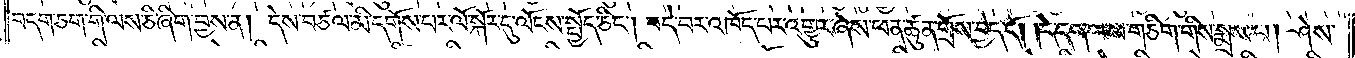བདག་ཅག་གི་ལས་ཅི་ཞིག་བྱས་ན། དེས་བཙལ་མི་དགོས་པར་ལོ་སྐོར་དུ་ལོངས་སྤྱོད་ཅིང༌། བདེ་བར་འཁོད་པར་འགྱུར་ཞེས་ཕན་ཚུན་གྲོས་བྱེད་དོ། །དེ་དག་ལས་གཅིག་གིས་སྨྲས་པ། ཤེས་
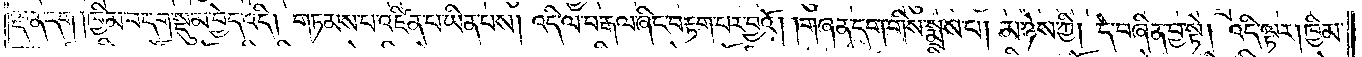ལྡན་དག །ཁྱིམ་བདག་སྡུམ་བྱེད་འདི། གཏམས་པ་འཛིན་པ་ཡིན་པས། འདི་ལ་བརྒལ་ཞིང་བརྟག་པར་བྱའོ། །གཞན་དག་གིས་སྨྲས་པ། མ་ཉེས་ཀྱི། དེ་བཞིན་བྱ་སྟེ། འདི་ལྟར། ཁྱིམ་
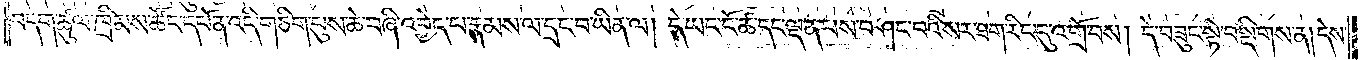བདག་ཚུལ་ཁྲིམས་ཚོང་དཔོན་འདི་གཅིག་པུས་ཆེ་བཞི་འབྱེད་པ་རྣམས་ལ་དྲང་བ་ཡིན་ལ། དེ་ཡང་ངོ་ཚ་དང་ལྡན་པས་བཤང་བའི་སར་ཐག་རིང་དུ་འགྲོ་བས། དེ་བཟུང་སྟེ་བསྡིགས་ན། དེས་
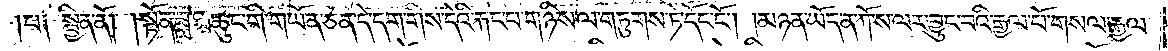པ༑ སྦྱིན་ནོ། །སྟོན་ཟླ་ཐ་ཆུང་གི་གཡོན་ཅན་དེ་དག་གིས་དེའི་རྐང་པ་གཉིས་ལ་གཏུགས་ཏེ་དོང་ངོ༌། །མཉན་ཡོད་ན་ཀོ་ས་ལར་བྱུང་བའི་རྒྱལ་པོ་གསལ་རྒྱལ་
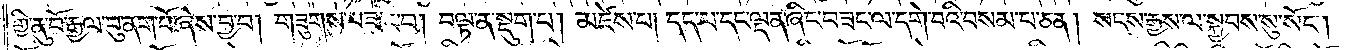གྱི་ནུ་བོ་རྒྱལ་བུ་ནག་པོ་ཞེས་བྱ་བ། གཟུགས་བཟང་བ། བལྟ་ན་སྡུག་པ། མཛེས་པ། དད་པ་དང་ལྡན་ཞིང་བཟང་ལ་དག་བའི་བསམ་པ་ཅན། སངས་རྒྱས་ལ་སྐྱབས་སུ་སོང༌།
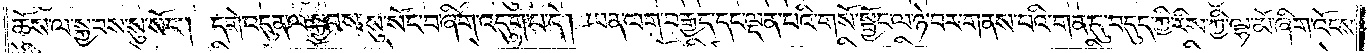ཆོས་ལ་སྐྱབས་སུ་སོང༌། དགེ་འདུན་ལ་སྐྱབས་སུ་སོང་བ་ཞིག་འདུག་པ་དེ། ཡན་ལག་བརྒྱད་དང་ལྡན་པའི་གསོ་སྦྱོང་ལ་ཉེ་བར་གནས་པའི་གན་དུ་བདུད་ཀྱི་རིས་ཀྱི་ལྷ་མོ་ཞིག་འོངས་
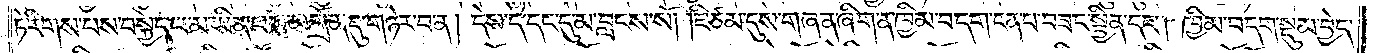ཏེ་རིགས་པས་བསྐྱེད་པ་མ་ཡིན་པས་མགྲོན་དུ་གཉེར་བ་ན། དེས་དེ་དང་དུ་མ་བླངས་སོ། །ཇི་ཙམ་དུས་གཞན་ཞིག་ན་ཁྱིམ་བདག་ངན་པ་བཟང་སྦྱིན་དང༌། ཁྱིམ་བདག་སྡུམ་བྱེད་
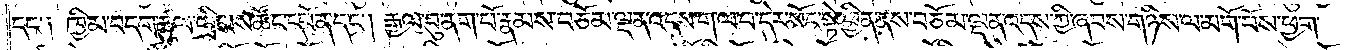དང་༑ ཁྱིམ་བདག་ཚུལ་ཁྲིམས་ཚོང་དཔོན་དང༌། རྒྱལ་བུ་ནག་པོ་རྣམས་བཅོམ་ལྡན་འདས་ག་ལ་བ་དེར་སོང་སྟེ་ཕྱིན་ནས་བཅོམ་ལྡན་འདས་ཀྱི་ཞབས་ལ་གཉིས་ལ་མགོ་བོས་ཕྱག་
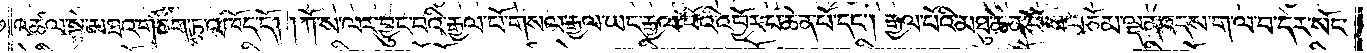འཚལ་སྟེ་མཐའ་གཅིག་ཏུ་འཁོད་དོ། །ཀོ་ས་ལར་བྱུང་བའི་རྒྱལ་པོ་གསལ་རྒྱལ་ཡང་རྒྱལ་པོའི་འབྱོར་པ་ཆེན་པོ་དང༌། རྒྱལ་པོའི་མཐུ་ཆེན་པོས་བཅོམ་ལྡན་འདས་ག་ལ་བ་དེར་སོང་
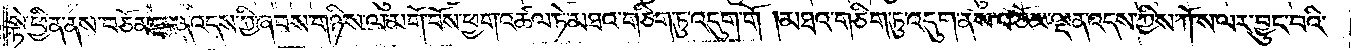སྟེ་ཕྱིན་ནས་བཅོམ་ལྡན་འདས་ཀྱི་ཞབས་གཉིས་ལ་མགོ་བོས་ཕྱག་འཚལ་ཏེ་མཐའ་གཅིག་ཏུ་འདུག་གོ །མཐའ་གཅིག་ཏུ་འདུག་ནས་བཅོམ་ལྡན་འདས་ཀྱིས་ཀོ་ས་ལར་བྱུང་བའི་
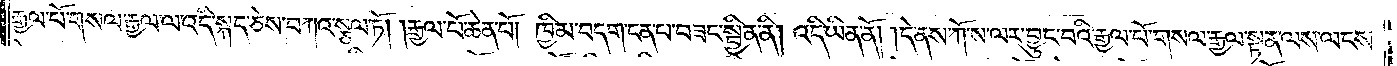རྒྱལ་པོ་གསལ་རྒྱལ་ལ་འདི་སྐད་ཅེས་བཀའ་སྩལ་ཏོ། །རྒྱལ་པོ་ཆེན་པོ། ཁྱིམ་བདག་ངན་པ་བཟང་སྦྱིན་ནི། འདི་ཡིན་ནོ། །དེ་ནས་ཀོ་ས་ལར་བྱུང་བའི་རྒྱལ་པོ་གསལ་རྒྱལ་སྟན་ལས་ལངས་
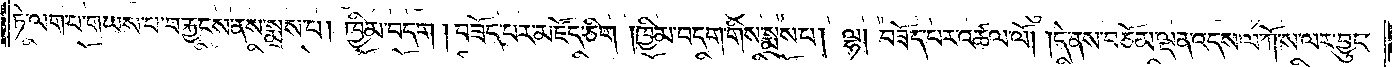ཏེ་ལག་པ་གཡས་པ་བརྐྱངས་ནས་སྨྲས་པ། ཁྱིམ་བདག །བཟོད་པར་མཛོད་ཅིག །ཁྱིམ་བདག་གིས་སྨྲས་པ། ལྷ། བཟོད་པར་འཚལ་ལོ། །དེ་ནས་བཅོམ་ལྡན་འདས་ལ་ཀོ་ས་ལར་བྱུང་
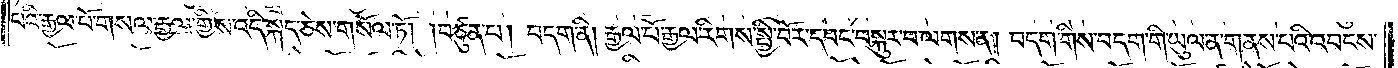བའི་རྒྱལ་པོ་གསལ་རྒྱལ་གྱིས་འདི་སྐད་ཅེས་གསོལ་ཏོ། །བཙུན་པ། བདག་ནི། རྒྱལ་པོ་རྒྱལ་རིགས་སྤྱི་བོར་དབང་བསྐུར་བ་ལགས་ན། བདག་གིས་བདག་གི་ཡུལ་ན་གནས་པའི་འབངས་
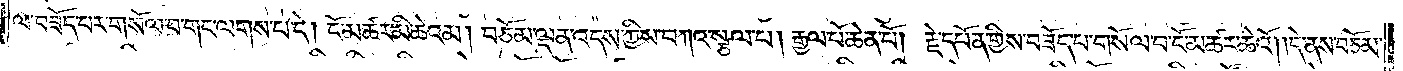ལ་བཟོད་པར་གསོལ་བ་གང་ལགས་པ་དེ། ངོ་མཚར་མི་ཆེའམ། བཅོམ་ལྡན་འདས་ཀྱིས་བཀའ་སྩལ་པ། རྒྱལ་པོ་ཆེན་པོ། རྗེ་དཔོན་གྱིས་བཟོད་པ་གསོལ་བ་ངོ་མཚར་ཆེའོ། །དེ་ནས་བཅོམ་
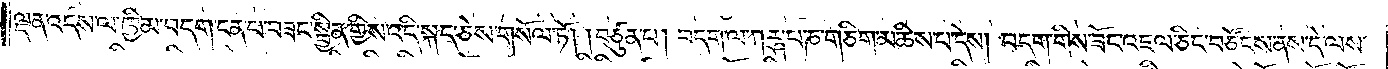ལྡན་འདས་ལ་ཁྱིམ་བདག་ངན་པ་བཟང་སྦྱིན་གྱིས་འདི་སྐད་ཅེས་གསོལ་ཏོ། །བཙུན་པ། བདག་ལ་ཀཪྴ་པ་ཎ་གཅིག་མཆིས་པ་དེས། བདག་གིས་ཟོང་འཇལ་ཅིང་བཙོངས་ནས་དེ་ལས་
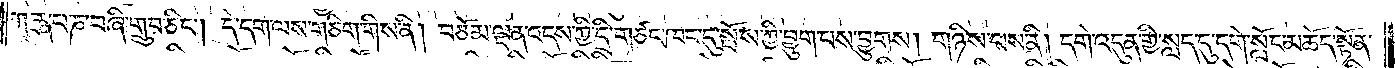ཀཪྴ་པ་ཎ་བཞི་གྲུབ་ཅིང༌། དེ་དག་ལས་གཅིག་གིས་ནི། བཅོམ་ལྡན་འདས་ཀྱི་དྲི་གཙང་ཁང་དུ་སྤོས་ཀྱི་བྱུག་པས་བྱུགས། གཉིས་པས་ནི། དགེ་འདུན་གྱི་སླད་དུ་དགེ་སློང་མཆོད་སྟོན་
